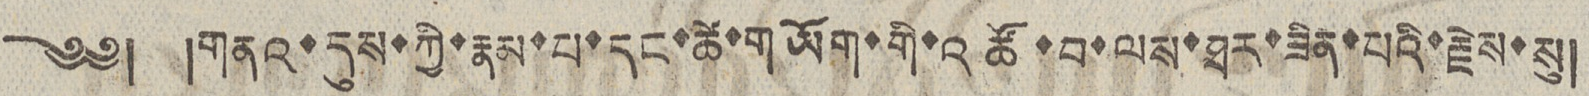༄༅། །གནའ་དུས་ཀྱི་རྣམ་པ་དང་ཚེ་གཡོག་གི་འཚོ་བ་ལས་ཐར་ཟིན་པའི་རྗེས་སུ།
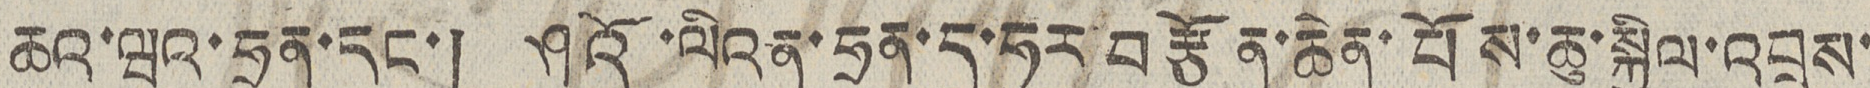ཆའ་ཝའ་ཧྲན་དང་། ཤའོ་ལིའན་ཧྲན་དུ་ཧུར་བརྩོན་ཆེན་པོས་ཆུ་སྐྱིལ་འབྲས་
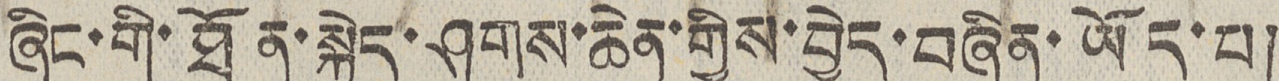ཞིང་གི་ཐོན་སྐྱེད་ཤུགས་ཆེན་གྱིས་བྱེད་བཞིན་ཡོད་པ།
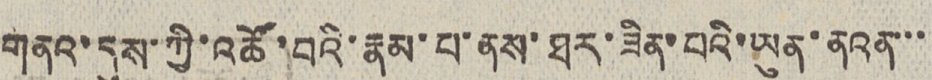གནའ་དུས་ཀྱི་འཚོ་བའི་རྣམ་པ་ནས་ཐར་ཟིན་པའི་ཡུན་ནའན་་་
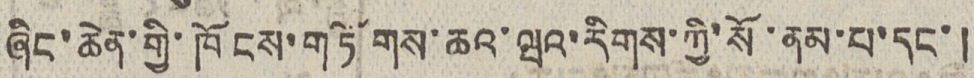ཞིང་ཆེན་གྱི་ཁོངས་གཏོགས་ཆའ་ཝའ་རིགས་ཀྱི་སོ་ནམ་པ་དང་།
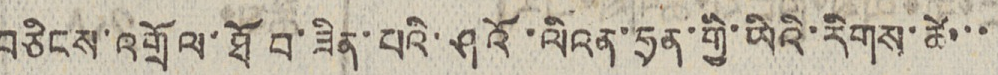བཅིངས་འགྲོལ་ཐོབ་ཟིན་པའི་ཤའོ་ལིའན་ཧྲན་གྱི་ཡིའི་རིགས་ཚེ་་་
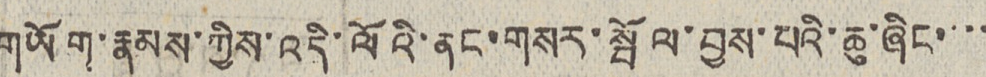གཡོག་རྣམས་ཀྱིས་འདི་ལོའི་ནང་གསར་སྦོལ་བྱས་པའི་ཆུ་ཞིང་་་་
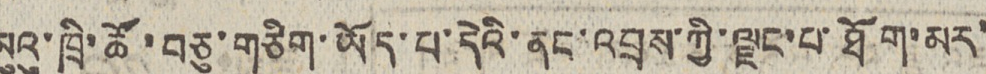མུའུ་ཁྲི་ཚོ་བཅུ་གཅིག་ཡོད་པ་དེའི་ནང་འབྲས་ཀྱི་ལྗང་པ་ཐོག་མར་
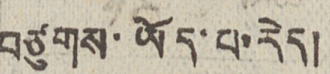བཙུགས་ཡོད་པ་རེད།
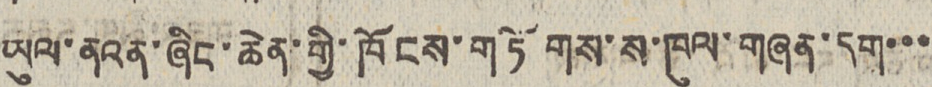ཡུལ་ནའན་ཞིང་ཆེན་གྱི་ཁོངས་གཏོགས་ས་ཁུལ་གཞན་དག་་་
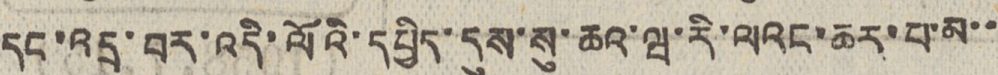དང་འདྲ་བར་འདི་ལོའི་དཔྱིད་དུས་སུ་ཆའ་ཝ་རི་ལའང་ཆར་པ་མ་་
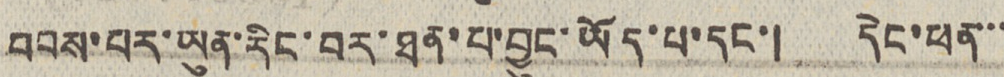བབས་པར་ཡུན་རིང་བར་ཐན་པ་བྱུང་ཡོད་པ་དང་། དེང་ཕན་་་
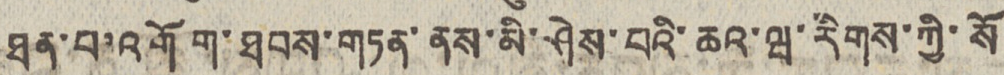ཐན་པ་འགོག་ཐབས་གཏན་ནས་མི་ཤེས་པའི་ཆའ་ཝ་རིགས་ཀྱི་སོ
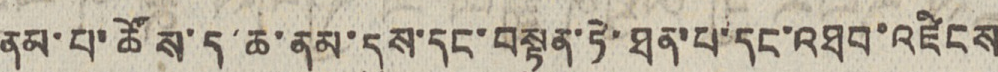ནམ་པ་ཚོས་ད་ཆ་ནམ་དུས་དང་བསྟུན་ཏེ་ཐན་པ་དང་འཐབ་འཛིངས
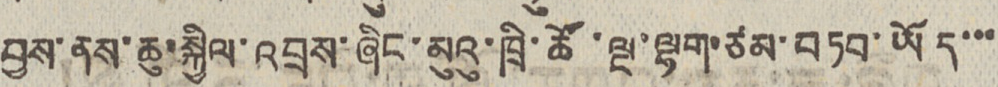བྱས་ནས་ཆུ་སྐྱིལ་འབྲས་ཞིང་མུའུ་ཁྲི་ཚོ་ལྔ་ལྷག་ཙམ་བཏབ་ཡོད་་་
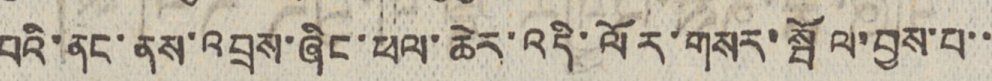པའི་ནང་ནས་འབྲས་ཞིང་ཕལ་ཆེར་འདི་ལོར་གསར་སྦོལ་བྱས་པ་་
